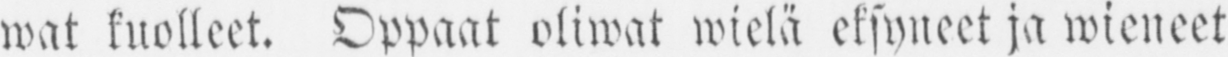wat kuolleet. Oppaat oliwat wielä eksyneet ja wieneet
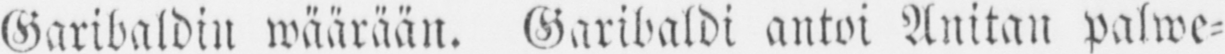Garibaldin wäärään. Garibaldi antoi Anitan palwe-
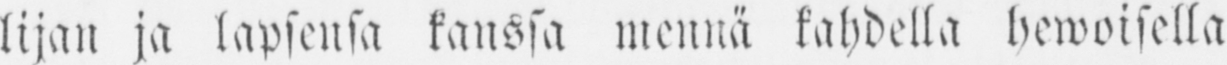lijan ja lapsensa kanssa mennä kahdella hewoisella
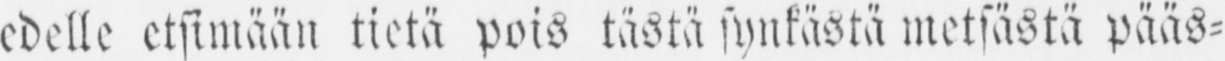edelle etsimään tietä pois tästä synkästä metsästä pääs-
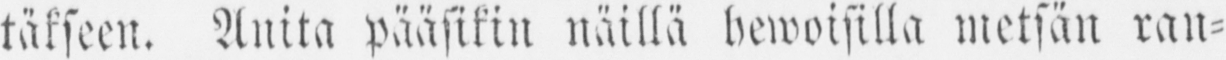täkseen. Anita pääsikin näillä hewoisilla metsän ran-
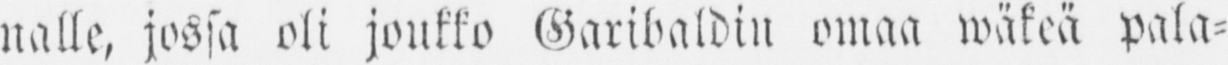nalle, jossa oli joukko Garibaldin omaa wäkeä pala-
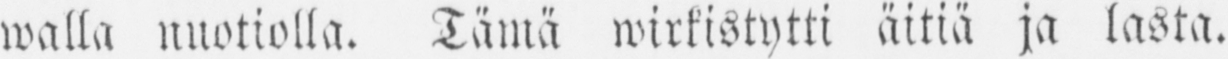walla nuotiolla. Tämä wirkistytti äitiä ja lasta.
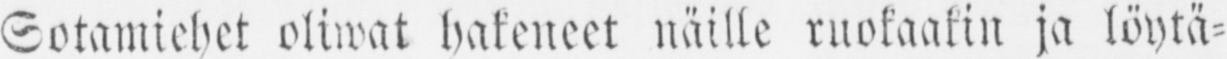Sotamiehet oliwat hakeneet näille ruokaakin ja löytä-
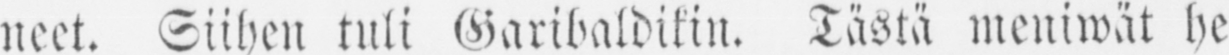neet. Siihen tuli Garibaldikin. Tästä meniwät he
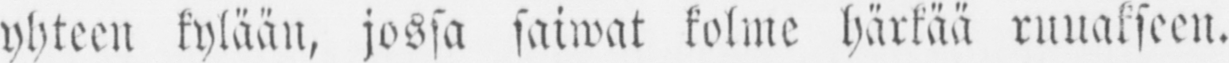yhteen kylään, jossa saiwat kolme härkää runalseen.
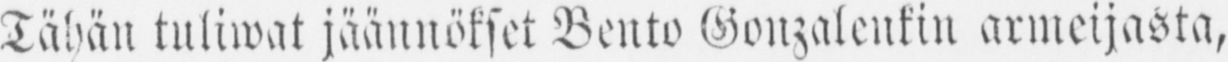Tähän tuliwat jäännökset Bento Gonzalenkin armeijasta,
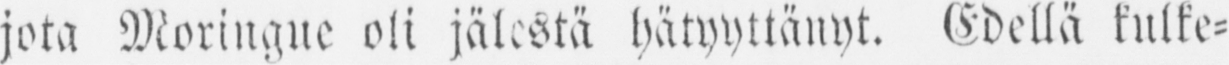jota Moringue oli jälestä hätyyttänyt. Edellä kulke-
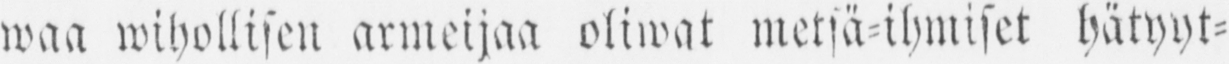waa wihollisen armeijaa oliwat metsä-ihmiset hätyyt-
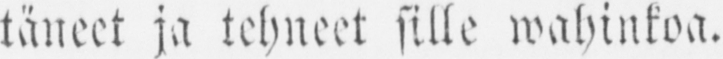täneet ja tehneet sille wahinkoa.
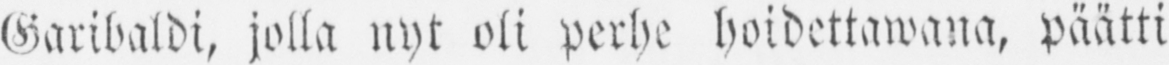Garibaldi, jolla nyt oli perhe hoidettawana, päätti
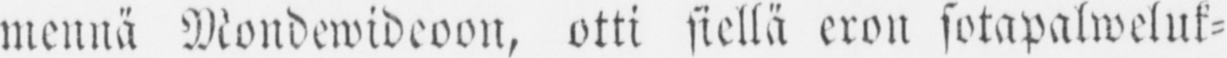mennä Mondewideoon, otti siellä eron sotapalweluk-
